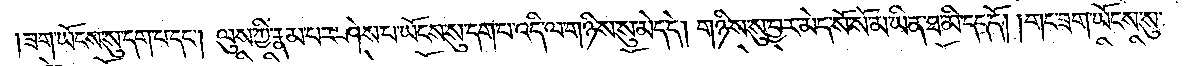ཟག་ཡོངས་སུ་དག་པ་དང༌། ལུས་ཀྱི་རྣམ་པར་ཤེས་པ་ཡོངས་སུ་དག་པ་འདི་ལ་གཉིས་སུ་མེད་དེ། གཉིས་སུ་བྱར་མེད་སོ་སོ་མ་ཡིན་ཐ་མི་དད་དོ། །གང་ཟག་ཡོངས་སུ་
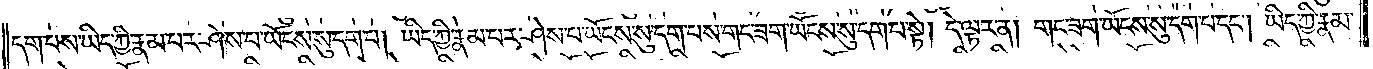དག་པས་ཡིད་ཀྱི་རྣམ་པར་ཤེས་པ་ཡོངས་སུ་དག་པ། ཡིད་ཀྱི་རྣམ་པར་ཤེས་པ་ཡོངས་སུ་དག་པས་གང་ཟག་ཡོངས་སུ་དག་པ་སྟེ། དེ་ལྟར་ན། གང་ཟག་ཡོངས་སུ་དག་པ་དང༌། ཡིད་ཀྱི་རྣམ་
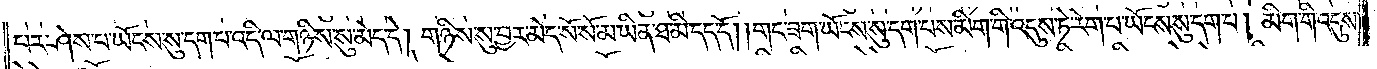པར་ཤེས་པ་ཡོངས་སུ་དག་པ་འདི་ལ་གཉིས་སུ་མེད་དེ། གཉིས་སུ་བྱར་མེད་སོ་སོ་མ་ཡིན་ཐ་མི་དད་དོ། །གང་ཟག་ཡོངས་སུ་དག་པས་མིག་གི་འདུས་ཏེ་རེག་པ་ཡོངས་སུ་དག་པ། མིག་གི་འདུས་
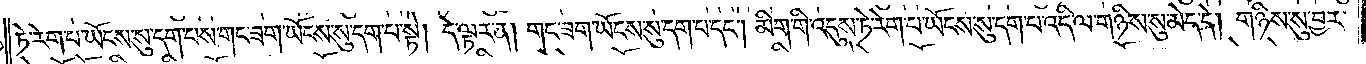ཏེ་རེག་པ་ཡོངས་སུ་དག་པས་གང་ཟག་ཡོངས་སུ་དག་པ་སྟེ། དེ་ལྟར་ན། གང་ཟག་ཡོངས་སུ་དག་པ་དང༌། མིག་གི་འདུས་ཏེ་རེག་པ་ཡོངས་སུ་དག་པ་འདི་ལ་གཉིས་སུ་མེད་དེ། གཉིས་སུ་བྱར་
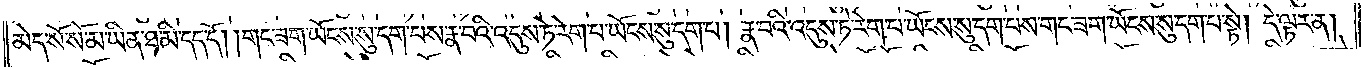མེད་སོ་སོ་མ་ཡིན་ཐ་མི་དད་དོ། །གང་ཟག་ཡོངས་སུ་དག་པས་རྣ་བའི་འདུས་ཏེ་རེག་པ་ཡོངས་སུ་དག་པ། རྣ་བའི་འདུས་ཏེ་རེག་པ་ཡོངས་སུ་དག་པས་གང་ཟག་ཡོངས་སུ་དག་པ་སྟེ། དེ་ལྟར་ན།
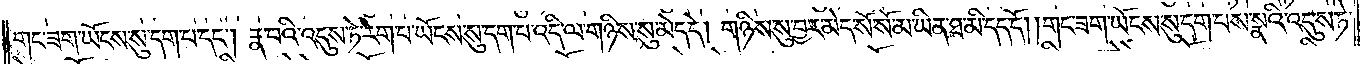གང་ཟག་ཡོངས་སུ་དག་པ་དང༌། རྣ་བའི་འདུས་ཏེ་རེག་པ་ཡོངས་སུ་དག་པ་འདི་ལ་གཉིས་སུ་མེད་དེ། གཉིས་སུ་བྱར་མེད་སོ་སོ་མ་ཡིན་ཐ་མི་དད་དོ། །གང་ཟག་ཡོངས་སུ་དག་པས་སྣའི་འདུས་ཏེ་
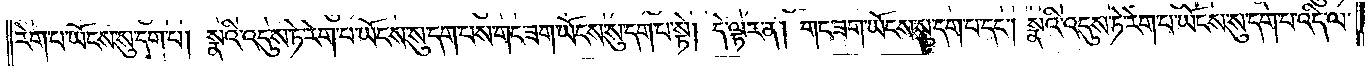རེག་པ་ཡོངས་སུ་དག་པ། སྣའི་འདུས་ཏེ་རེག་པ་ཡོངས་སུ་དག་པས་གང་ཟག་ཡོངས་སུ་དག་པ་སྟེ། དེ་ལྟར་ན། གང་ཟག་ཡོངས་སུ་དག་པ་དང༌། སྣའི་འདུས་ཏེ་རེག་པ་ཡོངས་སུ་དག་པ་འདི་ལ་
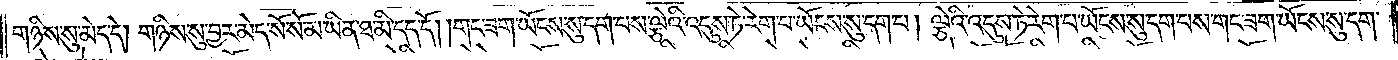གཉིས་སུ་མེད་དེ། གཉིས་སུ་བྱར་མེད་སོ་སོ་མ་ཡིན་ཐ་མི་དད་དོ། །གང་ཟག་ཡོངས་སུ་དག་པས་ལྕེའི་འདུས་ཏེ་རེག་པ་ཡོངས་སུ་དག་པ། ལྕེའི་འདུས་ཏེ་རེག་པ་ཡོངས་སུ་དག་པས་གང་ཟག་ཡོངས་སུ་དག་
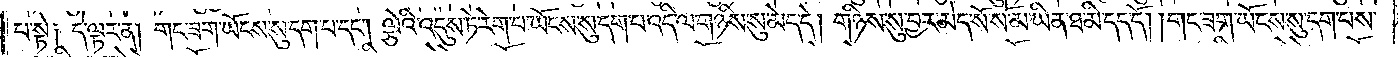པ་སྟེ༑ དེ་ལྟར་ན། གང་ཟག་ཡོངས་སུ་དག་པ་དང༌། ལྕེའི་འདུས་ཏེ་རེག་པ་ཡོངས་སུ་དག་པ་འདི་ལ་གཉིས་སུ་མེད་དེ། གཉིས་སུ་བྱར་མེད་སོ་སོ་མ་ཡིན་ཐ་མི་དད་དོ། །གང་ཟག་ཡོངས་སུ་དག་པས་
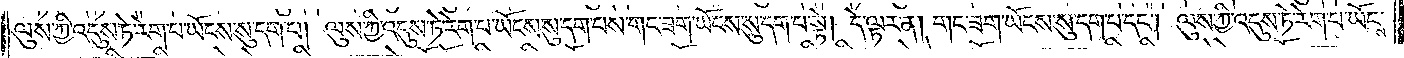ལུས་ཀྱི་འདུས་ཏེ་རེག་པ་ཡོངས་སུ་དག་པ། ལུས་ཀྱི་འདུས་ཏེ་རེག་པ་ཡོངས་སུ་དག་པས་གང་ཟག་ཡོངས་སུ་དག་པ་སྟེ། དེ་ལྟར་ན། གང་ཟག་ཡོངས་སུ་དག་པ་དང༌། ལུས་ཀྱི་འདུས་ཏེ་རེག་པ་ཡོངས་
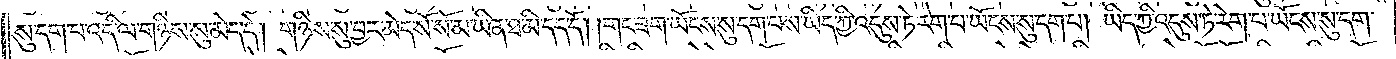སུ་དག་པ་འདི་ལ་གཉིས་སུ་མེད་དེ། གཉིས་སུ་བྱར་མེད་སོ་སོ་མ་ཡིན་ཐ་མི་དད་དོ། །གང་ཟག་ཡོངས་སུ་དག་པས་ཡིད་ཀྱི་འདུས་ཏེ་རེག་པ་ཡོངས་སུ་དག་པ། ཡིད་ཀྱི་འདུས་ཏེ་རེག་པ་ཡོངས་སུ་དག་
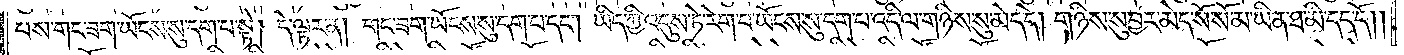པས་གང་ཟག་ཡོངས་སུ་དག་པ་སྟེ། དེ་ལྟར་ན། གང་ཟག་ཡོངས་སུ་དག་པ་དང༌། ཡིད་ཀྱི་འདུས་ཏེ་རེག་པ་ཡོངས་སུ་དག་པ་འདི་ལ་གཉིས་སུ་མེད་དེ། གཉིས་སུ་བྱར་མེད་སོ་སོ་མ་ཡིན་ཐ་མི་དད་དོ། །
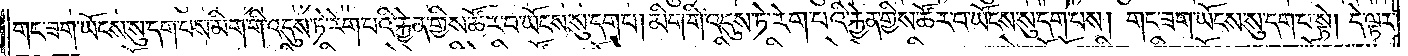གང་ཟག་ཡོངས་སུ་དག་པས་མིག་གི་འདུས་ཏེ་རེག་པའི་རྐྱེན་གྱིས་ཚོར་བ་ཡོངས་སུ་དག་པ། མིག་གི་འདུས་ཏེ་རེག་པའི་རྐྱེན་གྱིས་ཚོར་བ་ཡོངས་སུ་དག་པས། གང་ཟག་ཡོངས་སུ་དག་པ་སྟེ། དེ་ལྟར་
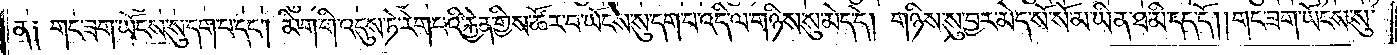ན༑ གང་ཟག་ཡོངས་སུ་དག་པ་དང༌། མིག་གི་འདུས་ཏེ་རེག་པའི་རྐྱེན་གྱིས་ཚོར་བ་ཡོངས་སུ་དག་པ་འདི་ལ་གཉིས་སུ་མེད་དེ། གཉིས་སུ་བྱར་མེད་སོ་སོ་མ་ཡིན་ཐ་མི་དད་དོ། །གང་ཟག་ཡོངས་སུ་
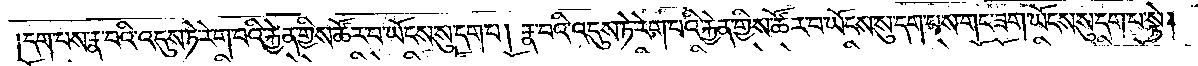དག་པས་རྣ་བའི་འདུས་ཏེ་རེག་པའི་རྐྱེན་གྱིས་ཚོར་བ་ཡོངས་སུ་དག་པ། རྣ་བའི་འདུས་ཏེ་རེག་པའི་རྐྱེན་གྱིས་ཚོར་བ་ཡོངས་སུ་དག་པས་གང་ཟག་ཡོངས་སུ་དག་པ་སྟེ།
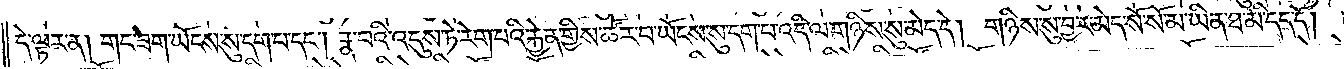དེ་ལྟར་ན། གང་ཟག་ཡོངས་སུ་དག་པ་དང༌། རྣ་བའི་འདུས་ཏེ་རེག་པའི་རྐྱེན་གྱིས་ཚོར་བ་ཡོངས་སུ་དག་པ་འདི་ལ་གཉིས་སུ་མེད་དེ། གཉིས་སུ་བྱར་མེད་སོ་སོ་མ་ཡིན་ཐ་མི་དད་དོ། །
